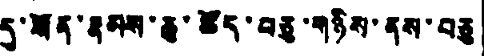དུ་སོན་རྣམས་ཆུ་ཚོད་བཅུ་གཉིས་ནས་བཅུ
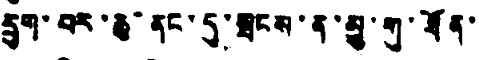དྲུག་པར་ཆུ་ནང་དུ་སྦངས་ན་མྱུ་གུ་ཐོན་
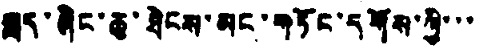སླད་ཞིང་ཆུ་ཐེངས་མང་གཏོང་དགོས་ཀྱི་་་
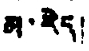མ་རེད།
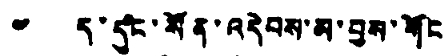༤ ད་དུང་སོན་འདེབས་མ་བྱས་གོང
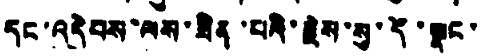དང་འདེབས་ལས་ཟིན་པའི་རྗེས་སུ་དོ་སྣང་
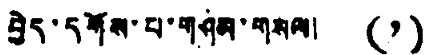བྱེད་དགོས་པ་གཤམ་གསལ། (༡)
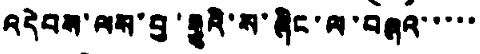འདེབས་ལས་བྱ་རྒྱུའི་ས་ཞིང་ལ་བཞའ་་་་་
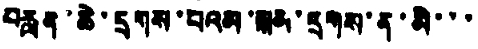བརླན་ཆེ་དྲགས་བའམ་སྐམ་དྲགས་ན་མི་་་
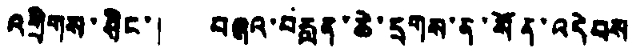འགྲིགས་ཞིང་། བཞའ་བརླན་ཆེ་དྲགས་ན་སོན་འདེབས
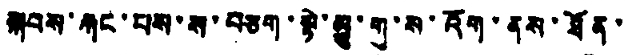སྐབས་རྐང་པས་ས་བཅག་སྟེ་མྱུ་གུ་ས་འོག་ནས་ཐོན་
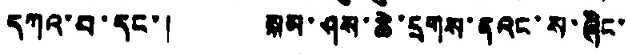དཀའ་བ་དང་། སྐམ་ཤས་ཆེ་དྲགས་ནའང་ས་ཞིང་
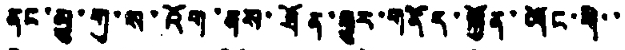ནང་མྱུ་གུ་ས་འོག་ནས་ཐོན་རྒྱུར་གནོད་སྐྱོན་ཡོང་གི་་
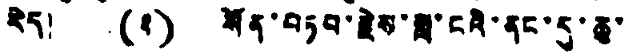རེད། (༢) སོན་བཏབ་རྗེས་སླ་ངའི་ནང་དུ་ཆུ་
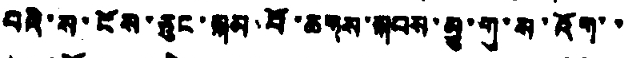བའི་ས་ངོས་ཅུང་སྐམ་པོ་ཆགས་སྐབས་མྱུ་གུ་ས་འོག་་
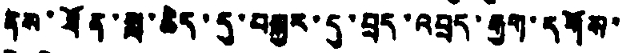ནས་ཐོན་སླ་ཆེད་དུ་བསྐྱར་དུ་བྲད་འབྲད་རྒྱག་དགོས་
